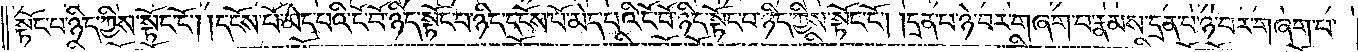སྟོང་པ་ཉིད་ཀྱིས་སྟོང་ངོ༌། །དངོས་པོ་མེད་པའི་ངོ་བོ་ཉིད་སྟོང་པ་ཉིད་དངོས་པོ་མེད་པའི་ངོ་བོ་ཉིད་སྟོང་པ་ཉིད་ཀྱིས་སྟོང་ངོ༌༎ དྲན་པ་ཉེ་བར་གཞག་པ་རྣམས་དྲན་པ་ཉེ་བར་གཞག་པ་
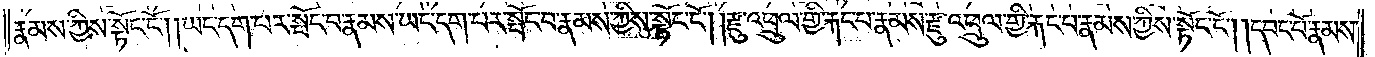རྣམས་ཀྱིས་སྟོང་ངོ༌། །ཡང་དག་པར་སྤོང་བ་རྣམས་ཡང་དག་པར་སྤོང་བ་རྣམས་ཀྱིས་སྟོང་ངོ༌། །རྫུ་འཕྲུལ་གྱི་རྐང་པ་རྣམས་རྫུ་འཕྲུལ་གྱི་རྐང་པ་རྣམས་ཀྱིས་སྟོང་ངོ༌། །དབང་པོ་རྣམས་
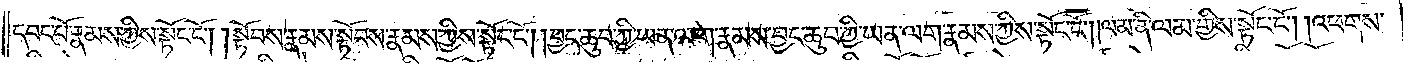དབང་པོ་རྣམས་ཀྱིས་སྟོང་ངོ༌། །སྟོབས་རྣམས་སྟོབས་རྣམས་ཀྱིས་སྟོང་ངོ༌། །བྱང་ཆུབ་ཀྱི་ཡན་ལག་རྣམས་བྱང་ཆུབ་ཀྱི་ཡན་ལག་རྣམས་ཀྱིས་སྟོང་ངོ༌། །ལམ་ནི་ལམ་གྱིས་སྟོང་ངོ༌། །འཕགས་
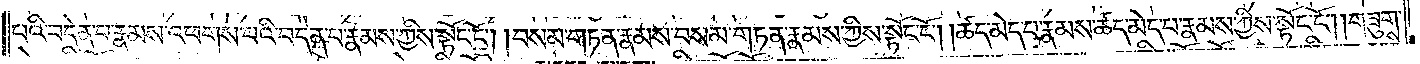པའི་བདེན་པ་རྣམས་འཕགས་པའི་བདེན་པ་རྣམས་ཀྱིས་སྟོང་ངོ༌། །བསམ་གཏན་རྣམས་བསམ་གཏན་རྣམས་ཀྱིས་སྟོང་ངོ༌། །ཚད་མེད་པ་རྣམས་ཚད་མེད་པ་རྣམས་ཀྱིས་སྟོང་ངོ༌། །གཟུགས་
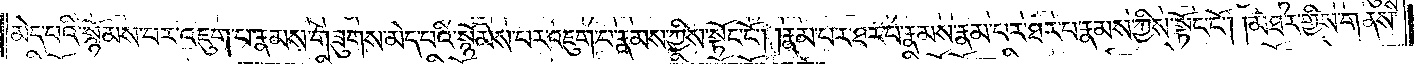མེད་པའི་སྙོམས་པར་འཇུག་པ་རྣམས་གཟུགས་མེད་པའི་སྙོམས་པར་འཇུག་པ་རྣམས་ཀྱིས་སྟོང་ངོ༌། །རྣམ་པར་ཐར་པ་རྣམས་རྣམ་པར་ཐར་པ་རྣམས་ཀྱིས་སྟོང་ངོ༌། །མཐར་གྱིས་གནས་
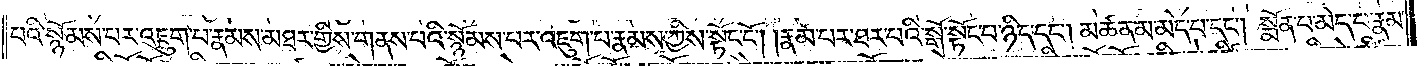པའི་སྙོམས་པར་འཇུག་པ་རྣམས་མཐར་གྱིས་གནས་པའི་སྙོམས་པར་འཇུག་པ་རྣམས་ཀྱིས་སྟོང་ངོ༌། །རྣམ་པར་ཐར་པའི་སྒོ་སྟོང་པ་ཉིད་དང༌། མཚན་མ་མེད་པ་དང༌། སྨོན་པ་མེད་པ་རྣམ་
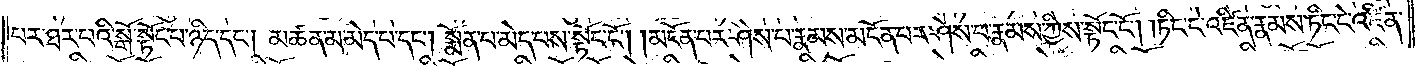པར་ཐར་པའི་སྒོ་སྟོང་པ་ཉིད་དང༌། མཚན་མ་མེད་པ་དང༌། སྨོན་པ་མེད་པས་སྟོང་ངོ༌། །མངོན་པར་ཤེས་པ་རྣམས་མངོན་པར་ཤེས་པ་རྣམས་ཀྱིས་སྟོང་ངོ༌། །ཏིང་ངེ་འཛིན་རྣམས་ཏིང་ངེ་འཛིན་
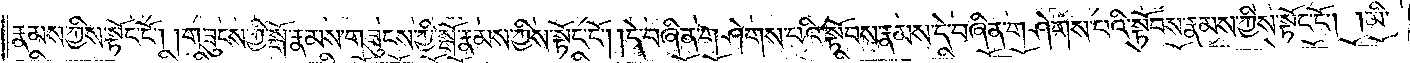རྣམས་ཀྱིས་སྟོང་ངོ༌། །གཟུངས་ཀྱི་སྒོ་རྣམས་གཟུངས་ཀྱི་སྒོ་རྣམས་ཀྱིས་སྟོང་ངོ༌། །དེ་བཞིན་གཤེགས་པའི་སྟོབས་རྣམས་དེ་བཞིན་གཤེགས་པའི་སྟོབས་རྣམས་ཀྱིས་སྟོང་ངོ༌། །མི་
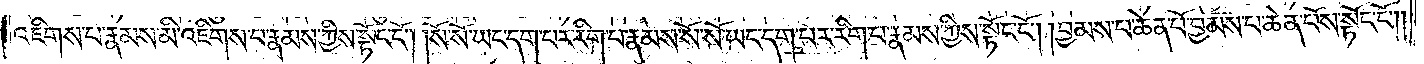འཇིགས་པ་རྣམས་མི་འཇིགས་པ་རྣམས་ཀྱིས་སྟོང་ངོ༌། །སོ་སོ་ཡང་དག་པར་རིག་པ་རྣམས་སོ་སོ་ཡང་དག་པར་རིག་པ་རྣམས་ཀྱིས་སྟོང་ངོ༌། །བྱམས་པ་ཆེན་པོ་བྱམས་པ་ཆེན་པོས་སྟོང་ངོ༌། །
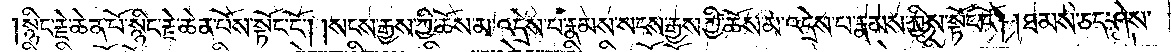སྙིང་རྗེ་ཆེན་པོ་སྙིང་རྗེ་ཆེན་པོས་སྟོང་ངོ༌། །སངས་རྒྱས་ཀྱི་ཆོས་མ་འདྲེས་པ་རྣམས་སངས་རྒྱས་ཀྱི་ཆོས་མ་འདྲེས་པ་རྣམས་ཀྱིས་སྟོང་ངོ༌། །ཐམས་ཅད་ཤེས་
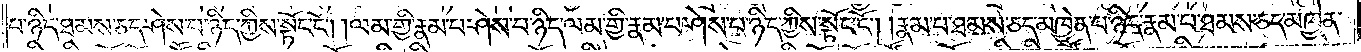པ་ཉིད་ཐམས་ཅད་ཤེས་པ་ཉིད་ཀྱིས་སྟོང་ངོ༌། །ལམ་གྱི་རྣམ་པ་ཤེས་པ་ཉིད་ལམ་གྱི་རྣམ་པ་ཤེས་པ་ཉིད་ཀྱིས་སྟོང་ངོ༌། །རྣམ་པ་ཐམས་ཅད་མཁྱེན་པ་ཉིད་རྣམ་པ་ཐམས་ཅད་མཁྱེན་
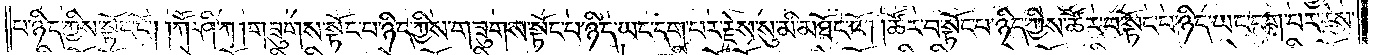པ་ཉིད་ཀྱིས་སྟོང་ངོ༌། །ཀཽ་ཤི་ཀ །གཟུགས་སྟོང་པ་ཉིད་ཀྱིས་གཟུགས་སྟོང་པ་ཉིད་ཡང་དག་པར་རྗེས་སུ་མི་མཐོང་ངོ༌། །ཚོར་བ་སྟོང་པ་ཉིད་ཀྱིས་ཚོར་བ་སྟོང་པ་ཉིད་ཡང་དག་པར་རྗེས་
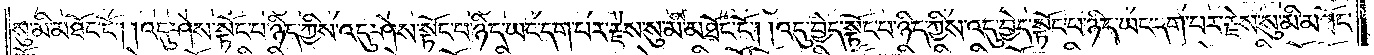སུ་མི་མཐོང་ངོ༌། །འདུ་ཤེས་སྟོང་པ་ཉིད་ཀྱིས་འདུ་ཤེས་སྟོང་པ་ཉིད་ཡང་དག་པར་རྗེས་སུ་མི་མཐོང་ངོ༌། །འདུ་བྱེད་སྟོང་པ་ཉིད་ཀྱིས་འདུ་བྱེད་སྟོང་པ་ཉིད་ཡང་དག་པར་རྗེས་སུ་མི་མཐོང་
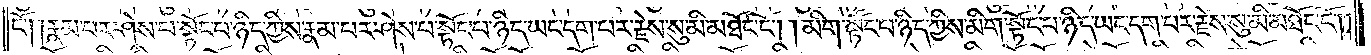ངོ༌། །རྣམ་པར་ཤེས་པ་སྟོང་པ་ཉིད་ཀྱིས་རྣམ་པར་ཤེས་པ་སྟོང་པ་ཉིད་ཡང་དག་པར་རྗེས་སུ་མི་མཐོང་ངོ༌། །མིག་སྟོང་པ་ཉིད་ཀྱིས་མིག་སྟོང་པ་ཉིད་ཡང་དག་པར་རྗེས་སུ་མི་མཐོང་ངོ༌། །
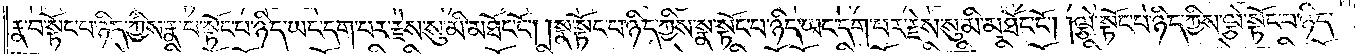རྣ་བ་སྟོང་པ་ཉིད་ཀྱིས་རྣ་བ་སྟོང་པ་ཉིད་ཡང་དག་པར་རྗེས་སུ་མི་མཐོང་ངོ༌། །སྣ་སྟོང་པ་ཉིད་ཀྱིས་སྣ་སྟོང་པ་ཉིད་ཡང་དག་པར་རྗེས་སུ་མི་མཐོང་ངོ༌། །ལྕེ་སྟོང་པ་ཉིད་ཀྱིས་ལྕེ་སྟོང་པ་ཉིད་
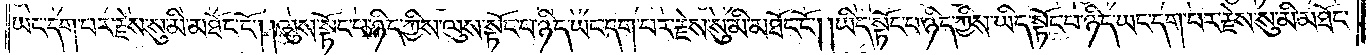ཡང་དག་པར་རྗེས་སུ་མི་མཐོང་ངོ༌། །ལུས་སྟོང་པ་ཉིད་ཀྱིས་ལུས་སྟོང་པ་ཉིད་ཡང་དག་པར་རྗེས་སུ་མི་མཐོང་ངོ༌། །ཡིད་སྟོང་པ་ཉིད་ཀྱིས་ཡིད་སྟོང་པ་ཉིད་ཡང་དག་པར་རྗེས་སུ་མི་མཐོང་
